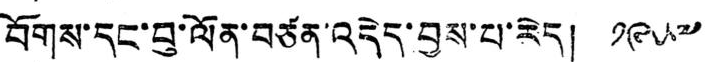བོགས་དང་བུ་ལོན་བཙན་འདེད་བྱས་པ་རེད། ༡༩༥༧
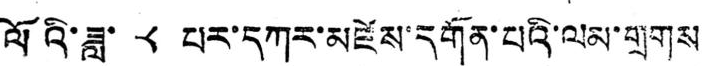ལོའི་ཟླ་ ༨ པར་དཀར་མཛེས་དགོན་པའི་ལམ་གྲགས
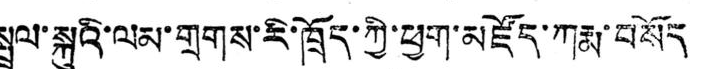སྦྲུལ་སྐུའི་ལམ་གྲགས་རི་ཁྲོད་ཀྱི་ཕྱག་མཛོད་ཀརྨ་བསོད
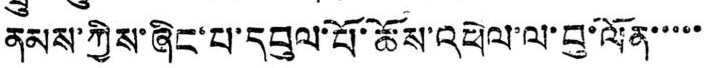ནམས་ཀྱིས་ཞིང་པ་དབུལ་པོ་ཆོས་འཕེལ་ལ་བུ་ལོན་་་་་
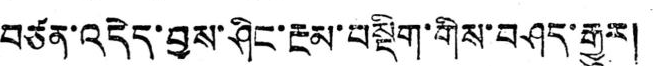བཙན་འདེད་བྱས་ཤིང་རྔམ་བསྡིག་གིས་བཤད་རྒྱུར།
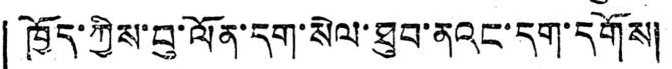「ཁྱོད་ཀྱིས་བུ་ལོན་དག་སེལ་ཐུབ་ནའང་དག་དགོས།
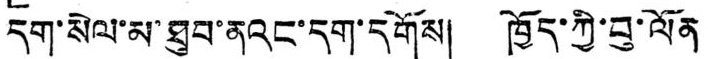དག་སེལ་མ་ཐུབ་ནའང་དག་དགོས། ཁྱོད་ཀྱི་བུ་ལོན
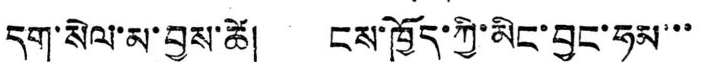དག་སེལ་མ་བྱས་ཚེ། ངས་ཁྱོད་ཀྱི་མིང་བྱང་ཧམ་་་
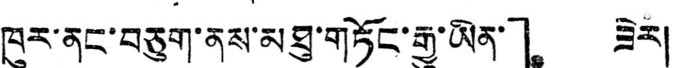ཁུར་ནང་བཅུག་ནས་མཐུ་གཏོང་རྒྱུ་ཡིན་」 ཟེར།
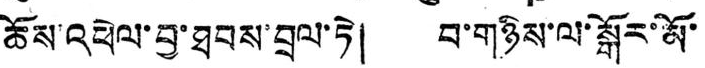ཆོས་འཕེལ་བྱ་ཐབས་བྲལ་ཏེ། བ་གཉིས་ལ་སྒོར་མོ་
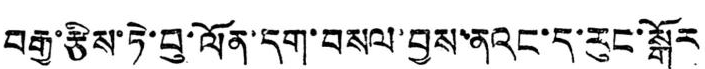བརྒྱ་རྩིས་ཏེ་བུ་ལོན་དག་བསལ་བྱས་ནའང་ད་རུང་སྒོར
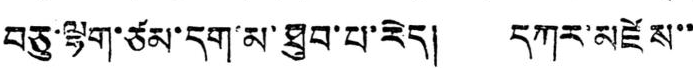བཅུ་ལྷག་ཙམ་དག་མ་ཐུབ་པ་རེད། དཀར་མཛེས་་
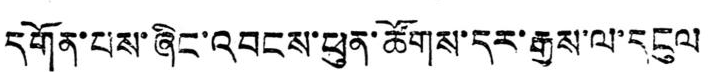དགོན་པས་ཞིང་འབངས་ཕུན་ཚོགས་དར་རྒྱས་ལ་དངུལ
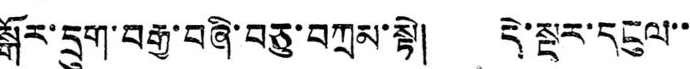སྒོར་དྲུག་བརྒྱ་བཞི་བཅུ་བཀྲམ་སྟེ། དེ་སྔར་དངུལ་་
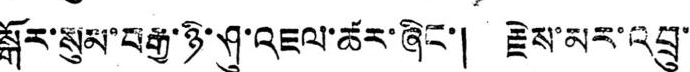སྒོར་སུམ་བརྒྱ་ཉི་ཤུ་འཇལ་ཚར་ཞིང་། རྗེས་མར་འབྲུ་
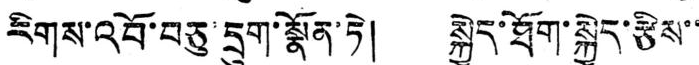རིགས་འབོ་བཅུ་དྲུག་སྣོན་ཏེ། སྐྱེད་ཐོག་སྐྱེད་རྩིས་་
